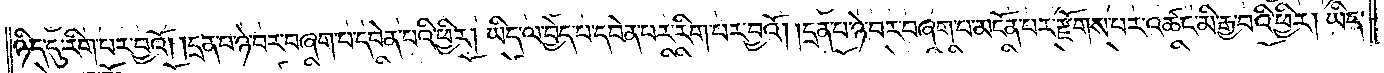ཉིད་དུ་རིག་པར་བྱའོ། །དྲན་པ་ཉེ་བར་བཞག་པ་དབེན་པའི་ཕྱིར། ཡིད་ལ་བྱེད་པ་དབེན་པར་རིག་པར་བྱའོ། །དྲན་པ་ཉེ་བར་བཞག་པ་མངོན་པར་རྫོགས་པར་འཚང་མི་རྒྱ་བའི་ཕྱིར། ཡིད་
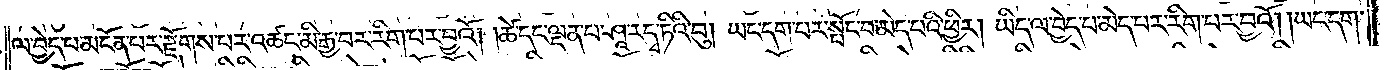ལ་བྱེད་པ་མངོན་པར་རྫོགས་པར་འཚང་མི་རྒྱ་བར་རིག་པར་བྱའོ། །ཚེ་དང་ལྡན་པ་ཤཱ་ར་དྭ་ཏིའི་བུ། ཡང་དག་པར་སྤོང་བ་མེད་པའི་ཕྱིར། ཡིད་ལ་བྱེད་པ་མེད་པར་རིག་པར་བྱའོ། །ཡང་དག་
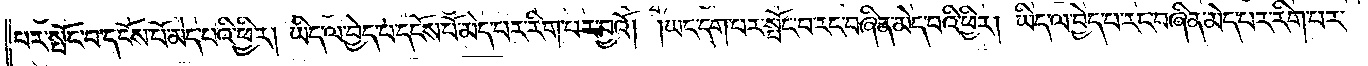པར་སྤོང་བ་དངོས་པོ་མེད་པའི་ཕྱིར། ཡིད་ལ་བྱེད་པ་དངོས་པོ་མེད་པར་རིག་པར་བྱའོ། །ཡང་དག་པར་སྤོང་བ་རང་བཞིན་མེད་པའི་ཕྱིར། ཡིད་ལ་བྱེད་པ་རང་བཞིན་མེད་པར་རིག་པར་
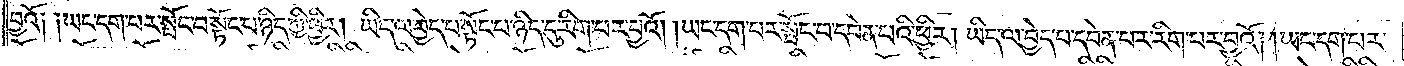བྱའོ༏ ༏ཡང་དག་པར་སྤོང་བ་སྟོང་པ་ཉིད་ཀྱི་ཕྱིར། ཡིད་ལ་བྱེད་པ་སྟོང་པ་ཉིད་དུ་རིག་པར་བྱའོ། །ཡང་དག་པར་སྤོང་བ་དབེན་པའི་ཕྱིར། ཡིད་ལ་བྱེད་པ་དབེན་པར་རིག་པར་བྱའོ། །ཡང་དག་པར་
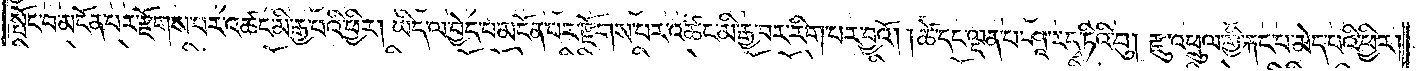སྤོང་བ་མངོན་པར་རྫོགས་པར་འཚང་མི་རྒྱ་བའི་ཕྱིར། ཡིད་ལ་བྱེད་པ་མངོན་པར་རྫོགས་པར་འཚང་མི་རྒྱ་བར་རིག་པར་བྱའོ། །ཚེ་དང་ལྡན་པ་ཤཱ་ར་དྭ་ཏིའི་བུ། རྫུ་འཕྲུལ་གྱི་རྐང་པ་མེད་པའི་ཕྱིར།
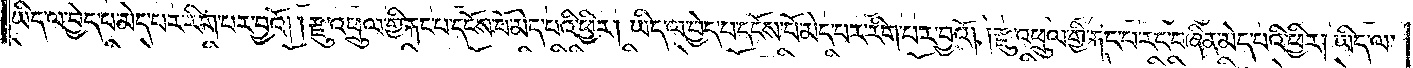ཡིད་ལ་བྱེད་པ་མེད་པར་རིག་པར་བྱའོ། །རྫུ་འཕྲུལ་གྱི་རྐང་པ་དངོས་པོ་མེད་པའི་ཕྱིར། ཡིད་ལ་བྱེད་པ་དངོས་པོ་མེད་པར་རིག་པར་བྱའོ། །རྫུ་འཕྲུལ་གྱི་རྐང་པ་རང་བཞིན་མེད་པའི་ཕྱིར། ཡིད་ལ་
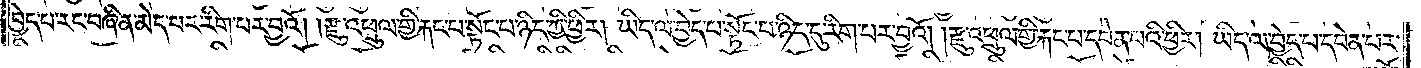བྱེད་པ་རང་བཞིན་མེད་པར་རིག་པར་བྱའོ། །རྫུ་འཕྲུལ་གྱི་རྐང་པ་སྟོང་པ་ཉིད་ཀྱི་ཕྱིར། ཡིད་ལ་བྱེད་པ་སྟོང་པ་ཉིད་དུ་རིག་པར་བྱའོ། །རྫུ་འཕྲུལ་གྱི་རྐང་པ་དབེན་པའི་ཕྱིར། ཡིད་ལ་བྱེད་པ་དབེན་པར་
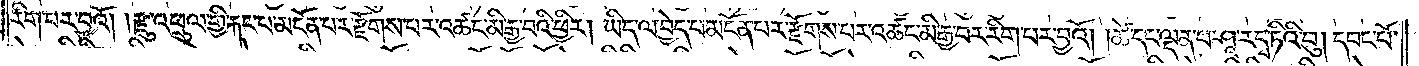རིག་པར་བྱའོ། །རྫུ་འཕྲུལ་གྱི་རྐང་པ་མངོན་པར་རྫོགས་པར་འཚང་མི་རྒྱ་བའི་ཕྱིར། ཡིད་ལ་བྱེད་པ་མངོན་པར་རྫོགས་པར་འཚང་མི་རྒྱ་བར་རིག་པར་བྱའོ། །ཚེ་དང་ལྡན་པ་ཤཱ་ར་དྭ་ཏིའི་བུ། དབང་པོ་
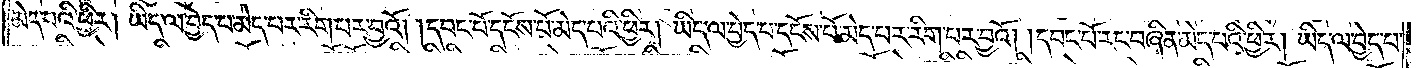མེད་པའི་ཕྱིར། ཡིད་ལ་བྱེད་པ་མེད་པར་རིག་པར་བྱའོ། །དབང་པོ་དངོས་པོ་མེད་པའི་ཕྱིར། ཡིད་ལ་བྱེད་པ་དངོས་པོ་མེད་པར་རིག་པར་བྱའོ། །དབང་པོ་རང་བཞིན་མེད་པའི་ཕྱིར། ཡིད་ལ་བྱེད་པ་
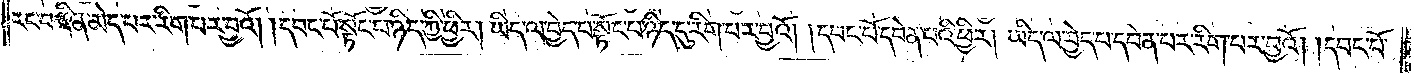རང་བཞིན་མེད་པར་རིག་པར་བྱའོ། །དབང་པོ་སྟོང་པ་ཉིད་ཀྱི་ཕྱིར། ཡིད་ལ་བྱེད་པ་སྟོང་པ་ཉིད་དུ་རིག་པར་བྱའོ། །དབང་པོ་དབེན་པའི་ཕྱིར། ཡིད་ལ་བྱེད་པ་དབེན་པར་རིག་པར་བྱའོ། །དབང་པོ་
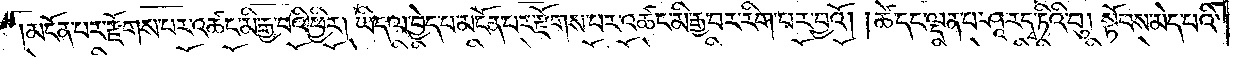མངོན་པར་རྫོགས་པར་འཚང་མི་རྒྱ་བའི་ཕྱིར། ཡིད་ལ་བྱེད་པ་མངོན་པར་རྫོགས་པར་འཚང་མི་རྒྱ་བར་རིག་པར་བྱའོ། །ཚེ་དང་ལྡན་པ་ཤཱ་ར་དྭ་ཏིའི་བུ། སྟོབས་མེད་པའི་
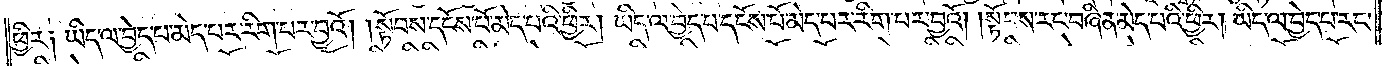ཕྱིར། ཡིད་ལ་བྱེད་པ་མེད་པར་རིག་པར་བྱའོ། །སྟོབས་དངོས་པོ་མེད་པའི་ཕྱིར། ཡིད་ལ་བྱེད་པ་དངོས་པོ་མེད་པར་རིག་པར་བྱའོ། །སྟོབས་རང་བཞིན་མེད་པའི་ཕྱིར། ཡིད་ལ་བྱེད་པ་རང་
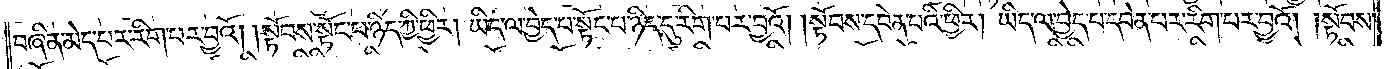བཞིན་མེད་པར་རིག་པར་བྱའོ། །སྟོབས་སྟོང་པ་ཉིད་ཀྱི་ཕྱིར། ཡིད་ལ་བྱེད་པ་སྟོང་པ་ཉིད་དུ་རིག་པར་བྱའོ། །སྟོབས་དབེན་པའི་ཕྱིར། ཡིད་ལ་བྱེད་པ་དབེན་པར་རིག་པར་བྱའོ། །སྟོབས་
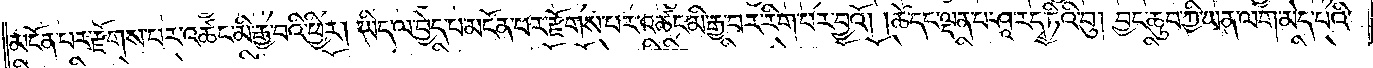མངོན་པར་རྫོགས་པར་འཚང་མི་རྒྱ་བའི་ཕྱིར། ཡིད་ལ་བྱེད་པ་མངོན་པར་རྫོགས་པར་འཚང་མི་རྒྱ་བར་རིག་པར་བྱའོ། །ཚེ་དང་ལྡན་པ་ཤཱ་ར་དྭ་ཏིའི་བུ། བྱང་ཆུབ་ཀྱི་ཡན་ལག་མེད་པའི་
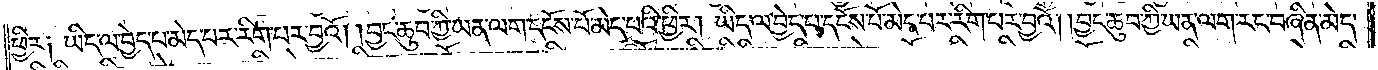ཕྱིར༏ ཡིད་ལ་བྱེད་པ་མེད་པར་རིག་པར་བྱའོ། །བྱང་ཆུབ་ཀྱི་ཡན་ལག་དངོས་པོ་མེད་པའི་ཕྱིར། ཡིད་ལ་བྱེད་པ་དངོས་པོ་མེད་པར་རིག་པར་བྱའོ། །བྱང་ཆུབ་ཀྱི་ཡན་ལག་རང་བཞིན་མེད་
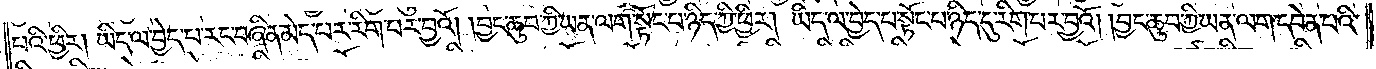པའི་ཕྱིར། ཡིད་ལ་བྱེད་པ་རང་བཞིན་མེད་པར་རིག་པར་བྱའོ། །བྱང་ཆུབ་ཀྱི་ཡན་ལག་སྟོང་པ་ཉིད་ཀྱི་ཕྱིར། ཡིད་ལ་བྱེད་པ་སྟོང་པ་ཉིད་དུ་རིག་པར་བྱའོ། །བྱང་ཆུབ་ཀྱི་ཡན་ལག་དབེན་པའི་
